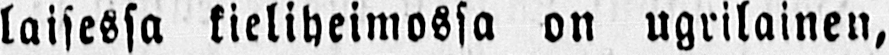laisessa kieliheimossa on ugrilainen,
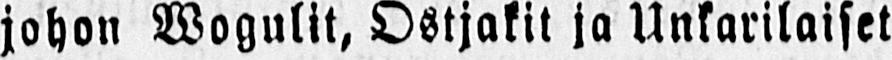johon Mogulit, Ostjakit ja Unkarilaiset
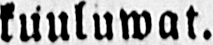kuulumat.
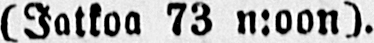(Jatkoa 73 n:von).
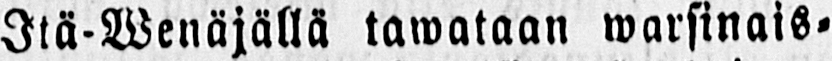Itä-Wenäjällä tawataan warsinais-
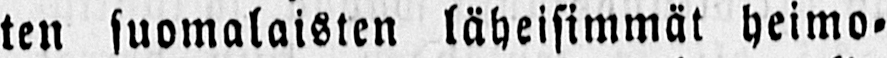ten suomalaisten läheisimmät heimo-
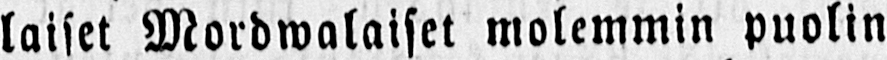laiset Mordwalaiset molemmin puolin
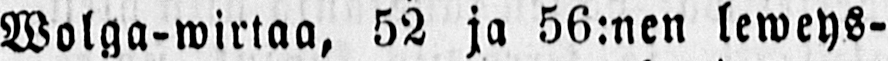Wolga-wirtaa, 52 ja 56:nen leweys-
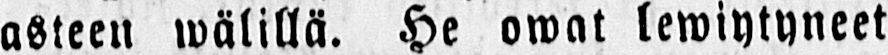asteen wälillä. He owat lewiytyneet
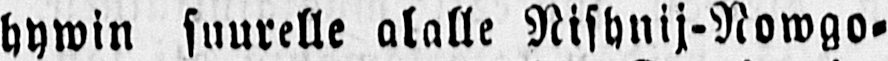hywin suurelle alalle Nishnij-Nowgo-
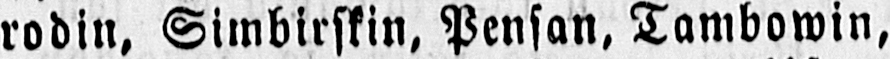rodin, Simbirskin, Pensan, Tambowin,
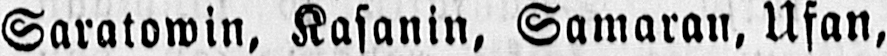Saratowin, Kasanin, Samaran, Ufan,
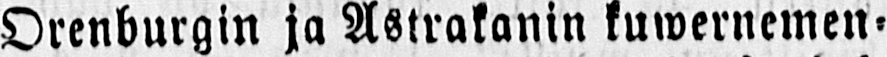Orenburgin ja Astrakanin kuwernemen-
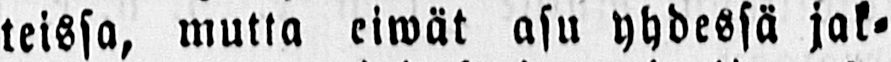teissa, mutta eiwät asu yhdessä jak-
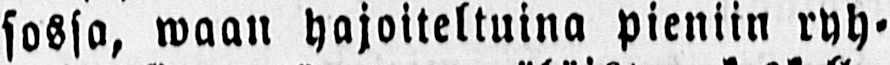sossa, waan hajoiteltuina pieniin ryh-
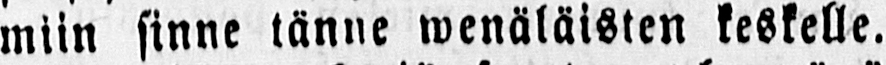miin sinne tänne wenäläisten keskelle.
